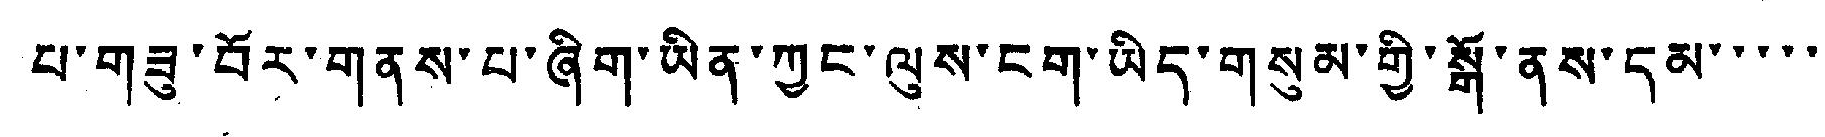པ་གཟུ་བོར་གནས་པ་ཞིག་ཡིན་ཀྱང་ལུས་ངག་ཡིད་གསུམ་གྱི་སྒོ་ནས་དམ་་་་་
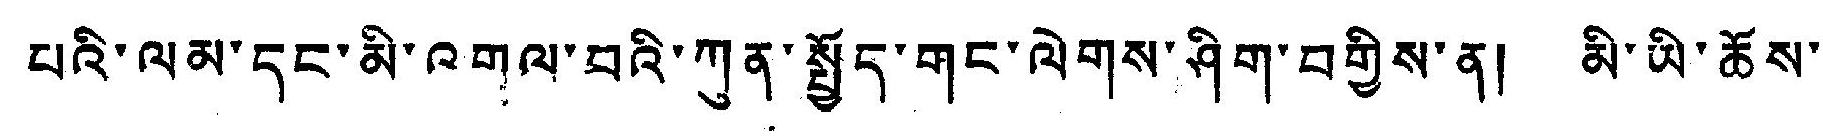པའི་ལམ་དང་མི་འགལ་བའི་ཀུན་སྤྱོད་གང་ལེགས་ཤིག་བགྱིས་ན། མི་ཡི་ཆོས་
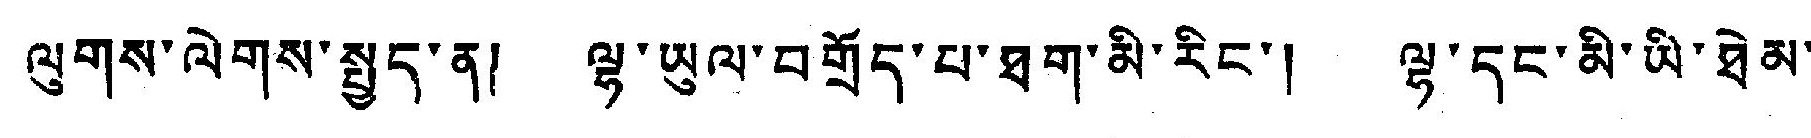ལུགས་ལེགས་སྤྱད་ན། ལྷ་ཡུལ་བགྲོད་པ་ཐག་མི་རིང་། ལྷ་དང་མི་ཡི་ཐེམ་
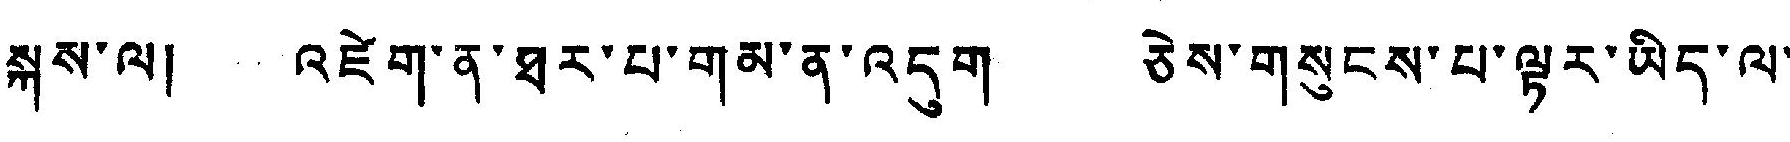སྐུས་ལ། འཇིག་ན་ཐར་པ་གམ་ན་འདུག ཅེས་གསུངས་པ་ལྟར་ཡིད་ལ་
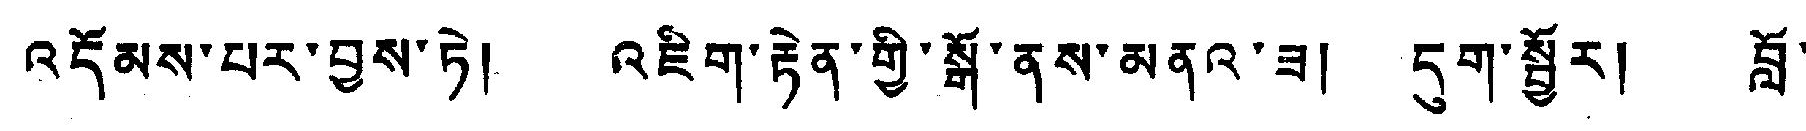འདོམས་པར་བྱས་ཏེ། འཇིག་རྟེན་གྱི་སྒོ་ནས་མནའ་ཟ། དུག་སྦྱོར། བློ་
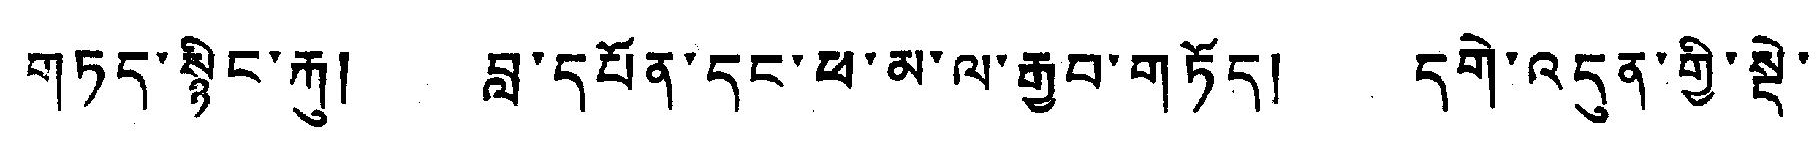གཏད་སྙིང་རྒུ། བླ་དཔོན་དང་ཕ་མ་ལ་རྒྱབ་གཏོད། དགེ་འདུན་གྱི་སྡེ་
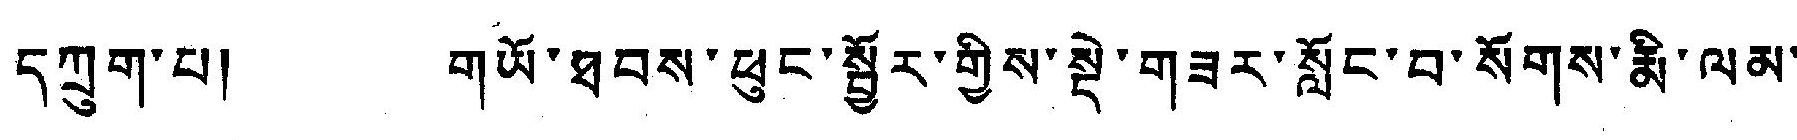གྲུག་པ། གཡོ་ཐབས་ཕུང་སྦྱོར་གྱིས་སྡེ་གཟར་སློང་བ་སོགས་རྨི་ལམ་
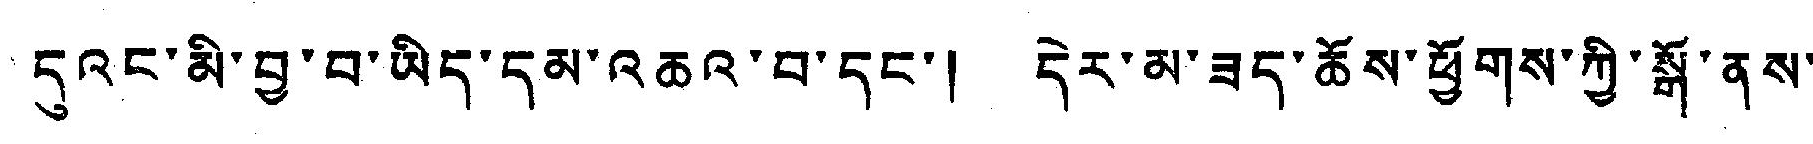དུའང་མི་བྱ་བ་ཡིད་དམ་འཆའ་བ་དང་། དེར་མ་ཟད་ཆོས་ཕྱོགས་ཀྱི་སྒོ་ནས་
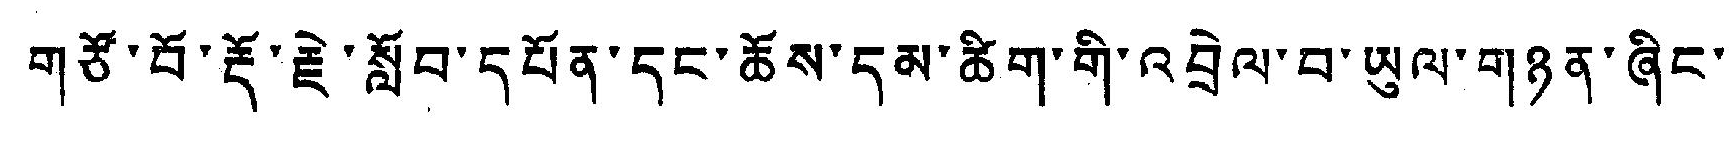གཙོ་བོ་རྡོ་རྗེ་སློབ་དཔོན་དང་ཆོས་དམ་ཚིག་གི་འབྲེལ་བ་ཡུལ་གཉན་ཞིང་།
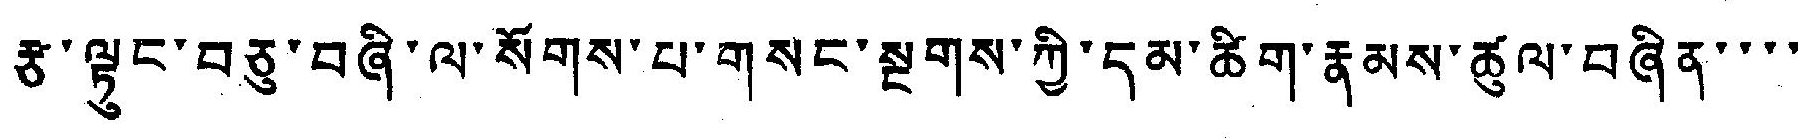རྩ་ལྟུང་བཅུ་བཞི་ལ་སོགས་པ་གསང་སྔགས་ཀྱི་དམ་ཚིག་རྣམས་ཚུལ་བཞིན་་་་
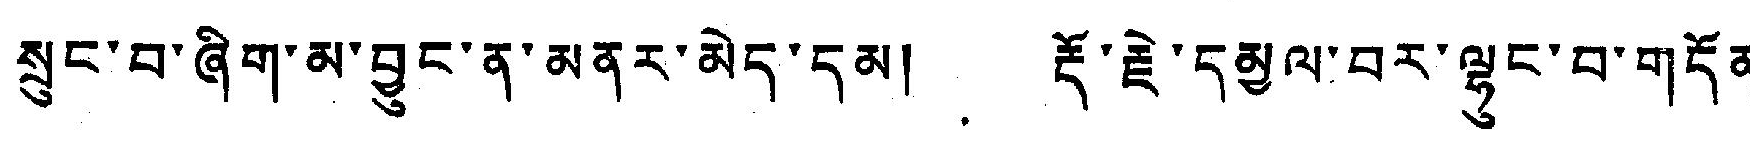སྲུང་བ་ཞིག་མ་བྱུང་ན་མནར་མེད་དམ། རྡོ་རྗེ་དམྱལ་བར་ལྷུང་བ་གདོན་་
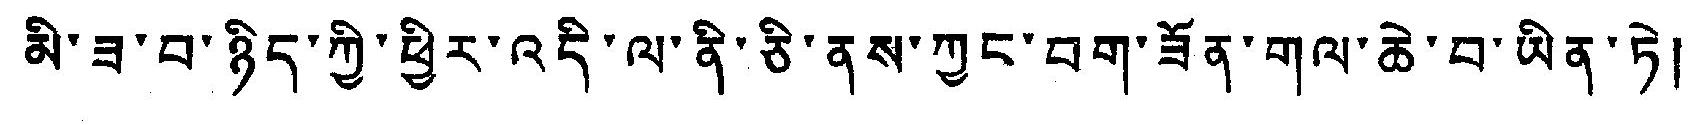མི་ཟ་བ་ཉིད་ཀྱི་ཕྱིར་འདི་ལ་ནི་ཅི་ནས་ཀྱང་བག་ཟོན་གལ་ཆེ་བ་ཡིན་ཏེ།
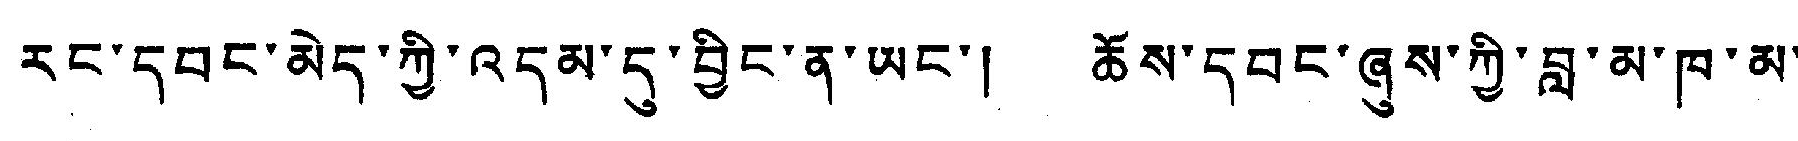རང་དབང་མེད་ཀྱི་འདམ་དུ་བྱིང་ན་ཡང་། ཆོས་དབང་ཞུས་ཀྱི་བླ་མ་ཁ་མ་
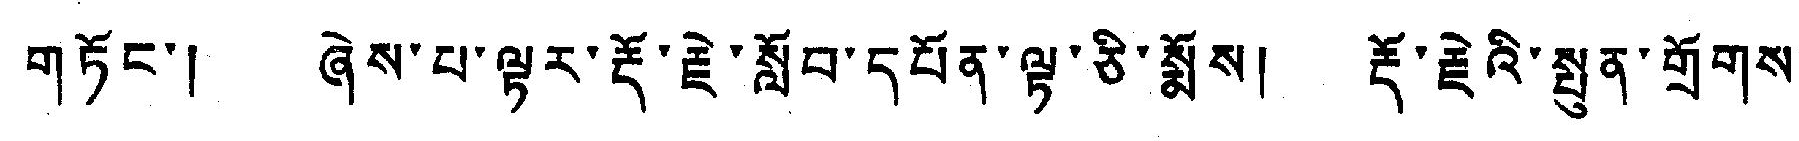གཏོང་། ཞེས་པ་ལྟར་རྡོ་རྗེ་སློབ་དཔོན་ལྟ་ཅི་སྨོས། རྡོ་རྗེའི་སྤུན་གྲོགས་
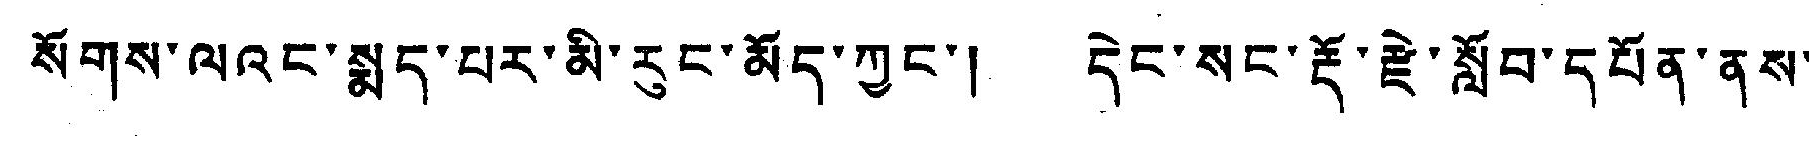སོགས་ལའང་སྨད་པར་མི་རུང་མོད་ཀྱང་། དེང་སང་རྡོ་རྗེ་སློབ་དཔོན་ནས་
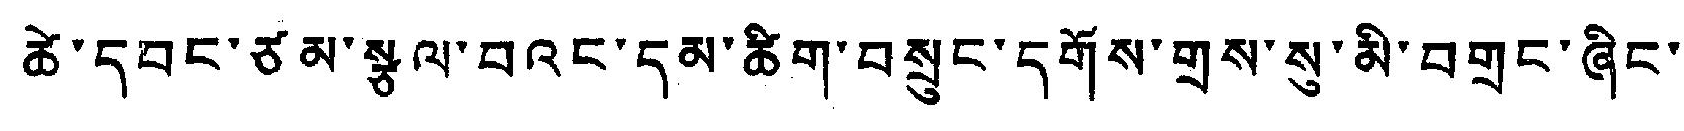ཚེ་དབང་ཙམ་སྩལ་བའང་དམ་ཚིག་བསྲུང་དགོས་གྲས་སུ་མི་བགྲང་ཞིང་།
